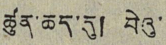ཚུན་ཆད་དུ། བེའུ་
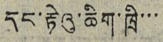དང་རྟེའུ་ཆིག་ཁྲི་་་
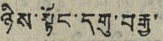ཉིས་སྟོང་དགུ་བརྒྱ་་
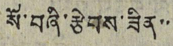སོ་བཞི་རྩེབས་ཟིན་་
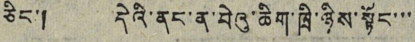ཅིང་། དེའི་ནང་ན་བེའུ་ཆིག་ཁྲི་ཉིས་སྟོང་་་
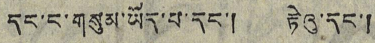དང་ང་གསུམ་ཡོད་པ་དང་། རྟེའུ་དང་།
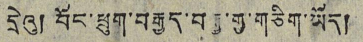དྲེའུ། བོད་ཕྲུག་བརྒྱད་བརྒྱ་གྱ་གཅིག་ཡོད།
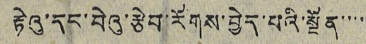རྟེའུ་དང་བེའུ་རྩེབ་རོགས་བྱེད་པའི་སྔོན་་་་་
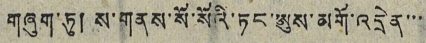གཞུག་ཏུ། ས་གནས་སོ་སོའི་ཏང་མུས་མགོ་འདྲེན་་་
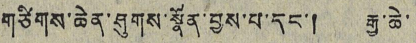གཙིགས་ཆེན་ཤུགས་སྣོན་བྱས་པ་དང་། རྒྱ་ཆེ་
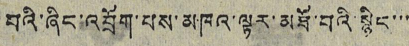བའི་ཞིང་འབྲོག་པས་མཁའ་ལྟར་མཐོ་བའི་སྙིང་་་
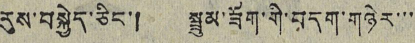རུས་བསྐྱེད་ཅིང་། སྦྲུམ་ཟོག་གི་བདག་གཉེར་་་
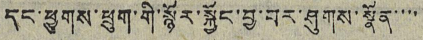དང་ཕྱུགས་ཕྲུག་གི་སྙོར་སྐྱོང་བྱ་བར་ཤུགས་སྣོན་་་་
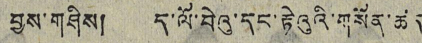བྱས་གཤིས། ད་ལོ་བེའུ་དང་རྟེའུའི་གསོན་ཚད
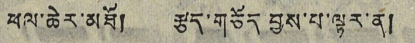ཕལ་ཆེར་མཐོ། རྩད་གཅོད་བྱས་པ་ལྟར་ན།
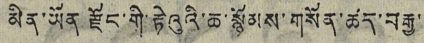མིན་ཡོན རྫོང་གི་རྟེའུའི་ཆ་སྙོམས་གསོན་ཚད་བརྒྱ་
